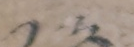༡༣
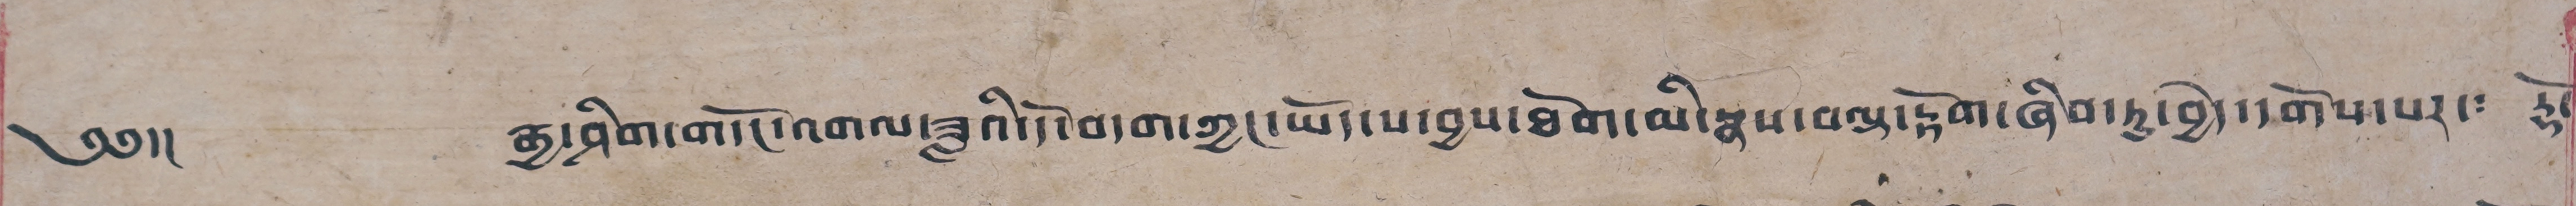༄༅།། རྒྱ་ཤིག་གདོང་འགལ་ཟླའི་དོ་བདག་ཀྱང་ཡོད་པ་བྱས་ཐོག་མི་སྣས་བརྡ་རྟོག་ཞིབ་ཏུ་བྱེད་དགོས་པར་༴ རྡོ་
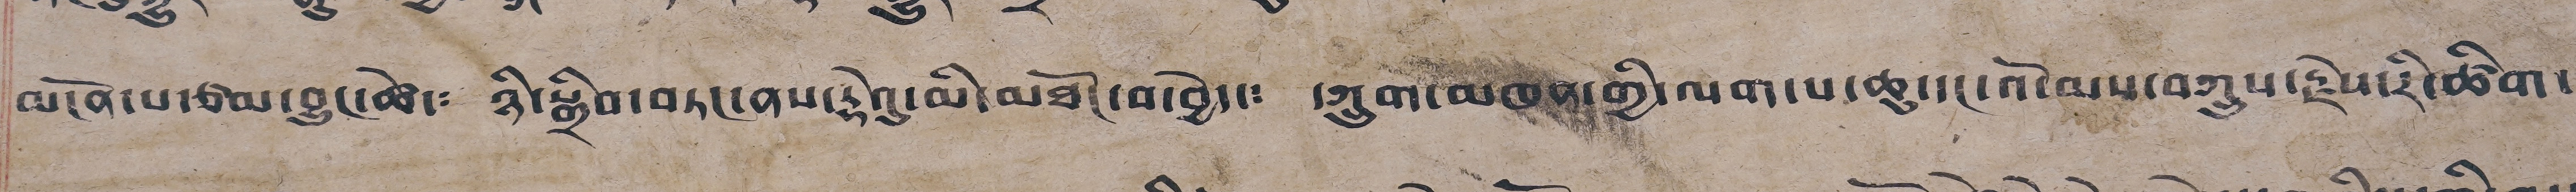མངོན་པ་ཙམ་བྱུང་ཚེ་༴ ཉི་སྒྲིབ་བཏང་ནས་རྟེའུ་མི་མཐོང་བ་བྱེད་༴ དཀྲུག་མཁན་གྱི་ལག་པ་ཆུ་དང་འོ་མས་བཀྲུས་རྗེས་རི་ཚིག་
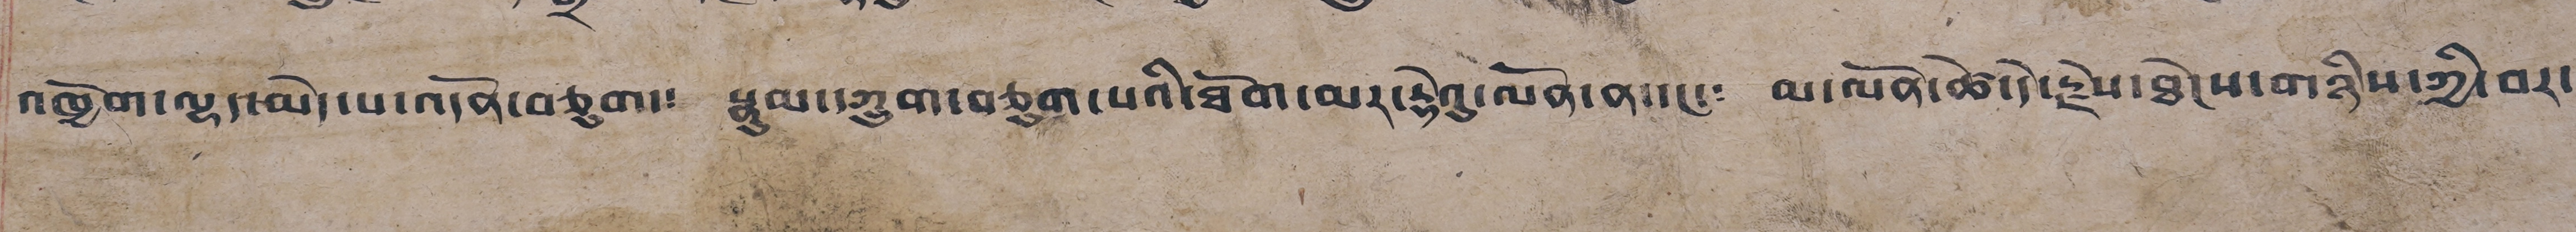འཁྱོག་ལྷ་མེད་པ་འདོན་བཅུག་༴ སྣུམ་དཀྲུག་བཅུག་པའི་ཐོག་མར་སྟེའུ་ལོན་ན་དང་༴ མ་ལོན་ཚེ་དེ་རྗེས་ཐེངས་གཉིས་ཀྱི་བར་
